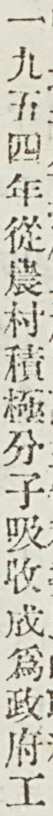一九五四年從農村積極分子吸收成爲政府工
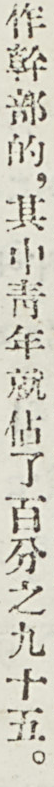作幹部的，其中靑年就佔了百分之九十五。
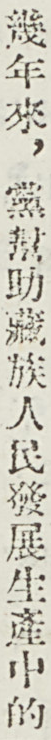幾年來，黨幫助藏族人民發展生產中的
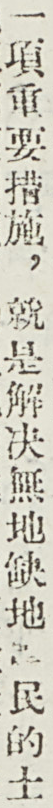一項重要措施，就是解決無地缺地農民的土
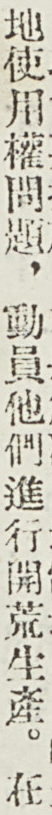地使用權問題，動員他們進行開荒生產。在
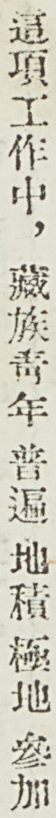這項工作中，藏族靑年普遍地積極地參加
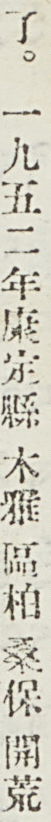了。一九五二年康定縣木雅區柏桑保開荒
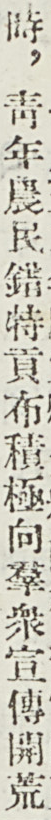時，靑年農民錯特貢布積極向羣衆宣傳開荒
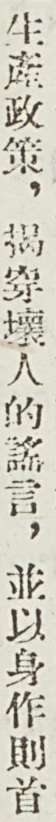生產政策，揭穿壞人的謠言，並以身作則首
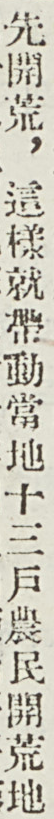先開荒，這樣就帶動當地十三戶農民開荒地
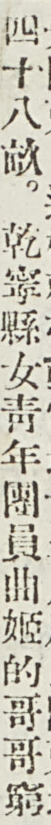四十八畝。乾寧先女靑年團員曲姬的各個窮
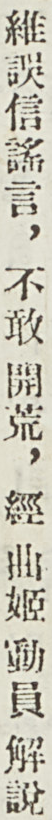維誤信謠言，不敢 開荒，經 曲姬 動員 解說
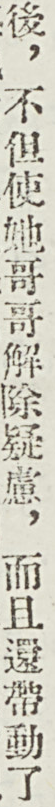後，不但使她哥哥解除疑慮，而且還帶動了
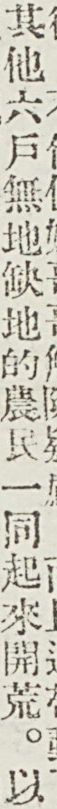其他六戶無地缺地的農民一同起來開荒。以
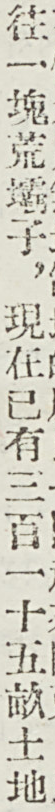往一塊荒壩子，現在已有三百一十五畝土地
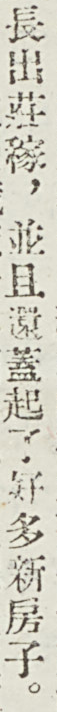長出莊稼，並且還蓋起了好多新房子。
